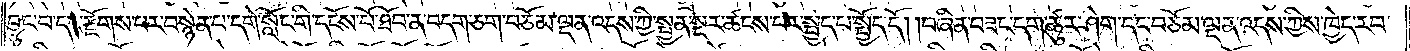བྱུང་བ་དང་རྫོགས་པར་བསྙེན་པ་དགེ་སློང་གི་དངོས་པོ་ཐོབ་ན་བདག་ཅག་བཅོམ་ལྡན་འདས་ཀྱི་སྤྱན་སྔར་ཚངས་པར་སྤྱད་པ་སྤྱོད་དོ། །བཞིན་བཟང་དག་ཚུར་ཤེག་དང་བཅོམ་ལྡན་འདས་ཀྱིས་ཁྱེད་རབ་
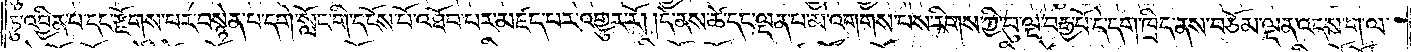ཏུ་འབྱིན་པ་དང་རྫོགས་པར་བསྙེན་པ་དགེ་སློང་གི་དངོས་པོ་འཐོབ་པར་མཛད་པར་འགྱུར་རོ། །དེ་ནས་ཚེ་དང་ལྡན་པ་མ་འགགས་པས་རིགས་ཀྱི་བུ་ལྔ་བརྒྱ་པོ་དེ་དག་ཁྲིད་ནས་བཅོམ་ལྡན་འདས་ག་ལ་
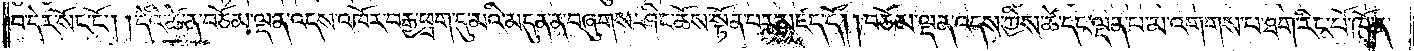བ་དེར་སོང་ངོ༌། །དེའི་ཚེ་ན་བཅོམ་ལྡན་འདས་འཁོར་བརྒྱ་ཕྲག་དུ་མའི་མདུན་ན་བཞུགས་ཤིང་ཆོས་སྟོན་པར་མཛད་དོ། །བཅོམ་ལྡན་འདས་ཀྱིས་ཚེ་དང་ལྡན་པ་མ་འགགས་པ་ཐག་རིང་པོ་ཁོ་ན་
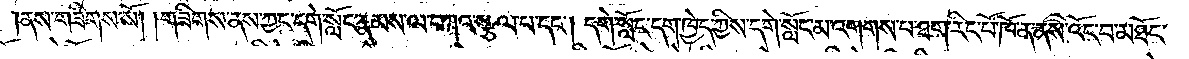ནས་གཟིགས་སོ། །གཟིགས་ནས་ཀྱང་དགེ་སློང་རྣམས་ལ་བཀའ་སྩལ་པ་དང༌། དགེ་སློང་དག་ཁྱེད་ཀྱིས་དགེ་སློང་མ་འགགས་པ་ཐག་རིང་པོ་ཁོ་ན་ནས་འོང་བ་མཐོང་
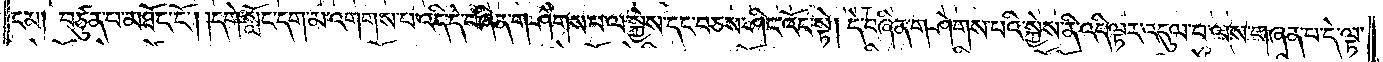ངམ། བཙུན་པ་མཐོང་ངོ༌། །དགེ་སློང་དག་མ་འགགས་པ་འདི་དེ་བཞིན་གཤེགས་པ་ལ་སྐྱེས་དང་བཅས་ཤིང་འོང་སྟེ། དེ་བཞིན་གཤེགས་པའི་སྐྱེས་ནི་འདི་ལྟར་འདུལ་བ་ལས་གཞན་པ་དེ་ལྟ་
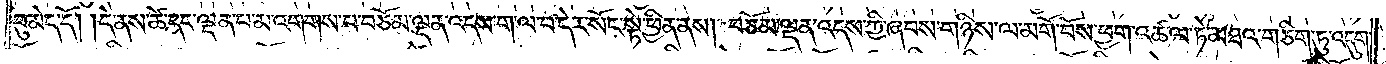བུ་མེད་དོ། །དེ་ནས་ཚེ་དང་ལྡན་པ་མ་འགགས་པ་བཅོམ་ལྡན་འདས་ག་ལ་བ་དེར་སོང་སྟེ་ཕྱིན་ནས། བཅོམ་ལྡན་འདས་ཀྱི་ཞབས་གཉིས་ལ་མགོ་བོས་ཕྱག་འཚལ་ཏེ་མཐའ་གཅིག་ཏུ་འདུག་
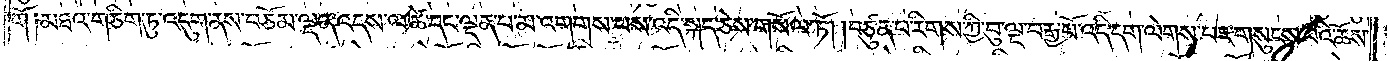གོ༑མཐའ་གཅིག་ཏུ་འདུག་ནས་བཅོམ་ལྡན་འདས་ལ་ཚེ་དང་ལྡན་པ་མ་འགགས་པས་འདི་སྐད་ཅེས་གསོལ་ཏོ། །བཙུན་པ་རིགས་ཀྱི་བུ་ལྔ་བརྒྱ་པོ་འདི་དག་ལེགས་པར་གསུངས་པའི་ཆོས་
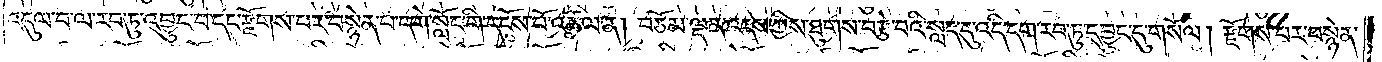འདུལ་བ་ལ་རབ་ཏུ་འབྱུང་བ་དང་རྫོགས་པར་བསྙེན་པ་དགེ་སློང་གི་དངོས་པོ་འཚལ་ན། བཅོམ་ལྡན་འདས་ཀྱིས་ཐུགས་བརྩེ་བའི་སླད་དུ་འདི་དག་རབ་ཏུ་དབྱུང་དུ་གསོལ། རྫོགས་པར་བསྙེན་
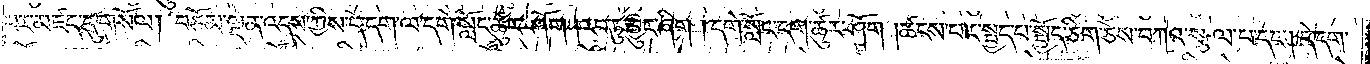པར་མཛད་དུ་གསོལ། བཅོམ་ལྡན་འདས་ཀྱིས་དེ་དག་ལ་དགེ་སློང་ཚུར་ཤོག །རབ་ཏུ་བྱུང་ཞིག །དགེ་སློང་དག་ཚུར་ཤོག །ཚངས་པར་སྤྱད་པ་སྤྱོད་ཅིག་ཅེས་བཀའ་སྩལ་པ་དང༌། དེ་དག་
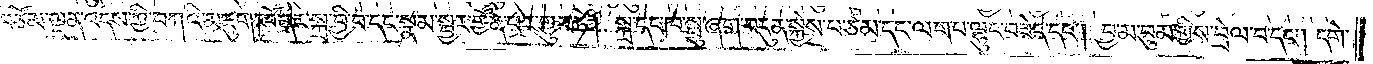བཅོམ་ལྡན་འདས་ཀྱི་བཀའི་མཇུག་ཁོ་ནར་སྐྲ་བྱི་བ་དང་སྣམ་སྦྱར་གྱོན་པར་གྱུར་ཏེ། སྐྲ་དང་ཁ་སྤུ་ཞག་བདུན་སྐྱེས་པ་ཙམ་དང་ལག་པ་ལྷུང་བཟེད་དང༌། བྱ་མ་བུམ་གྱིས་བྲེལ་བ་དང༌། དགེ་
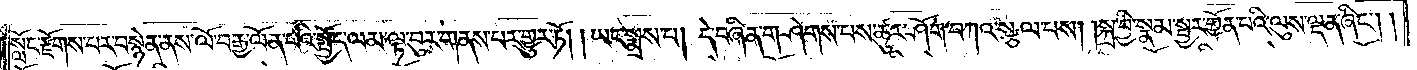སློང་རྫོགས་པར་བསྙེན་ནས་ལོ་བརྒྱ་ལོན་པའི་སྤྱོད་ལམ་ལྟ་བུར་གནས་པར་གྱུར་ཏོ། །ཡང་སྨྲས་པ། དེ་བཞིན་གཤེགས་པས་ཚུར་ཤོག་བཀའ་སྩལ་པ། །སྐྲ་བྱི་སྣམ་སྦྱར་གྱོན་པའི་ལུས་ལྡན་ཞིང༌། །
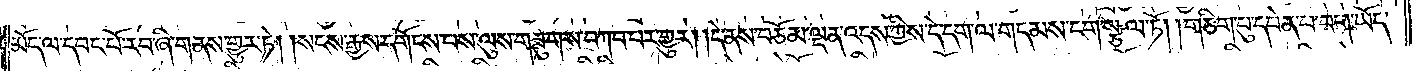མོད་ལ་དབང་པོ་རབ་ཞི་གནས་གྱུར་ཏེ། །སངས་རྒྱས་དགོངས་པས་ལུས་གཟུགས་བཀབ་པར་གྱུར། །དེ་ནས་བཅོམ་ལྡན་འདས་ཀྱིས་དེ་དག་ལ་གདམས་ངག་སྩལ་ཏོ། །གཅིག་པུ་དབེན་པ་བག་ཡོད་
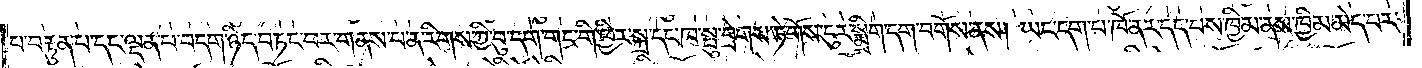པ་བརྟུན་པ་དང་ལྡན་པ་བདག་ཉིད་བཏང་བར་གནས་པ་ན་རིགས་ཀྱི་བུ་དག་གང་གི་ཕྱིར་སྐྲ་དང་ཁ་སྤུ་བྲེགས་ཏེ་གོས་ངུར་སྨྲིག་དག་བགོས་ནས། ཡང་དག་པ་ཁོ་ནར་དད་པས་ཁྱིམ་ནས་ཁྱིམ་མེད་པར་
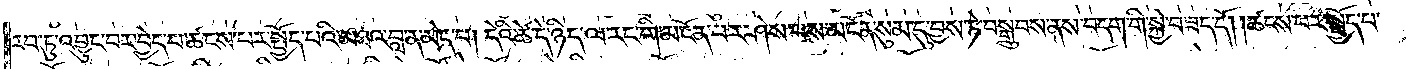རབ་ཏུ་འབྱུང་བར་བྱེད་པ་ཚངས་པར་སྤྱོད་པའི་མཐའ་བླ་ན་མེད་པ། དེའི་ཚེ་དེ་ཉིད་ལ་རང་གི་མངོན་པར་ཤེས་པས་མངོན་སུམ་དུ་བྱས་ཏེ་བསྒྲུབས་ནས་བདག་གི་སྐྱེ་བཟད་དོ། །ཚངས་པར་སྤྱོད་པ་
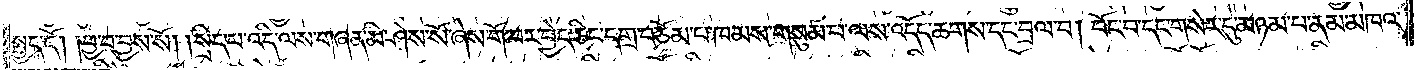སྤྱད་དོ། །བྱ་བ་བྱས་སོ། །སྲིད་པ་འདི་ལས་གཞན་མི་ཤེས་སོ་ཞེས་གོ་བར་བྱེད་ཅིང་དགྲ་བཅོམ་པ་ཁམས་གསུམ་པ་ལས་འདོད་ཆགས་དང་བྲལ་བ། བོང་བ་དང་གསེར་དུ་མཉམ་པ་ནམ་མཁའ་
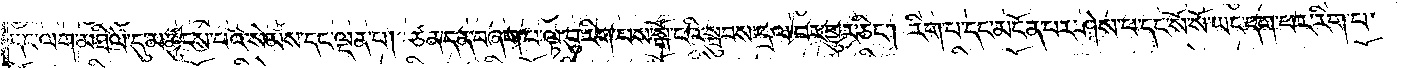དང་ལག་མཐིལ་དུ་མཚུངས་པའི་སེམས་དང་ལྡན་པ། ཙན་དན་བཞག་པ་ལྟ་བུ་རིག་པས་སྒོ་ངའི་སྦུབས་དྲལ་བར་གྱུར་ཅིང༌། རིག་པ་དང་མངོན་པར་ཤེས་པ་དང་སོ་སོ་ཡང་དག་པར་རིག་པ་
